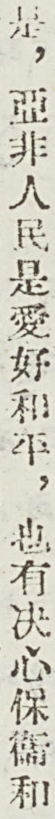是，亞非人民是愛好和平，也有決心保衛和
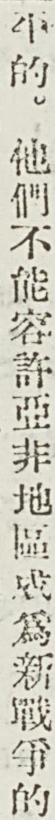平的。他們不能容許亞非地區成爲新戰爭的
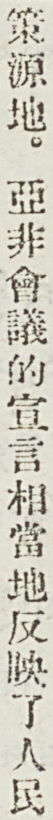策源地。亞非會議的宣言相當地反映了人民
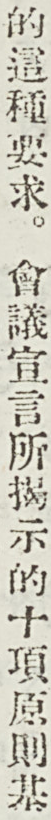的這種要求。會議宣言所揭示的十項原則基
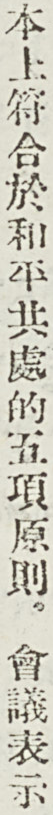本上符合於和平共處的五項原則。會議表示
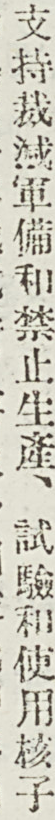支持裁減軍備和禁止生產、試驗和使用核子
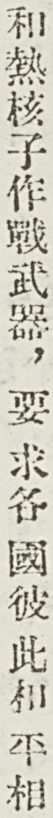和熱核子作戰武器，要求各國彼此和平相
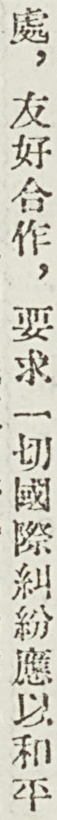處，友好合作，要求一切國際糾紛應以和平
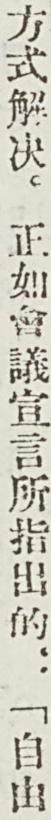方式解決。正如會議宣言所指出的：「自由
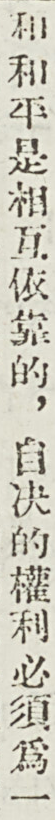和和平是相互依靠的，自決的權利必須爲一
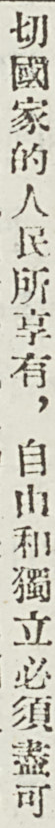切國家的人民所享有，自由和獨立必須儘可
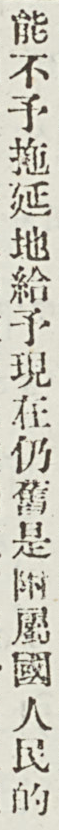能不予拖延地給予現在仍舊是附屬國人民的
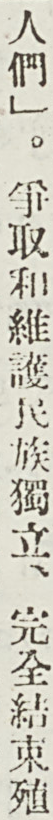人們」。爭取和維護民族獨立、完全結束殖
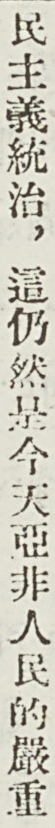民主義統治，這仍然是今天亞非人民的嚴重
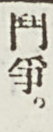鬥爭。
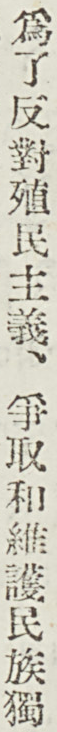爲了反對殖民主義、爭取和維護民族獨
